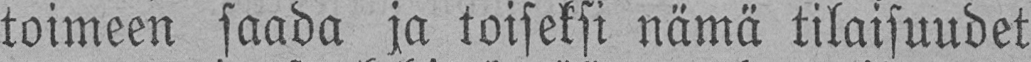toimeen saada ja toiseksi nämä tilaisuudet
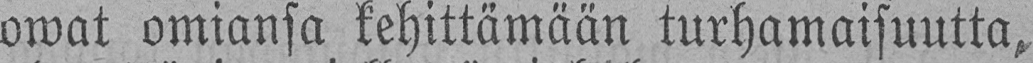owat omiansa kehittämään turhamaisuutta,
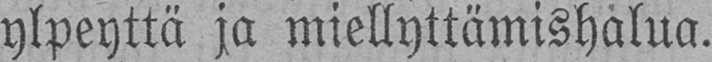ylpeyttä ja miellyttämishalua.
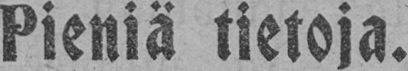Pieniä tietoja.
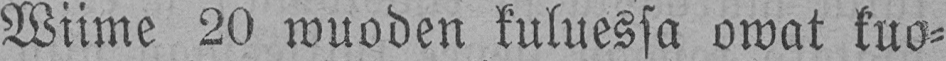Wiime 20 wuoden kuluessa owat kuo-
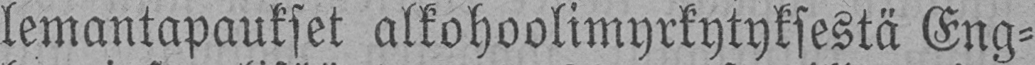lemantapaukset alkohoolimyrkytyksestä Eng-
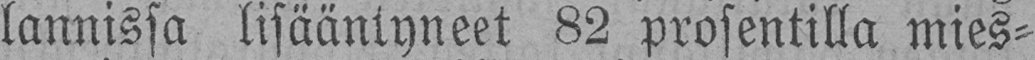lannissa lisääntyneet 82 prosentilla mies-
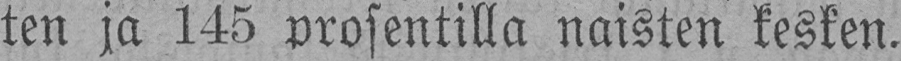ten ja 145 prosentilla naisten kesken.
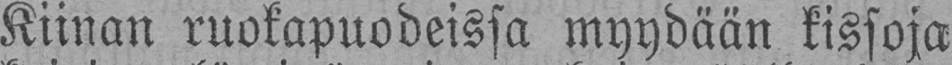Kiinan ruokapuodeissa myydään kissoja
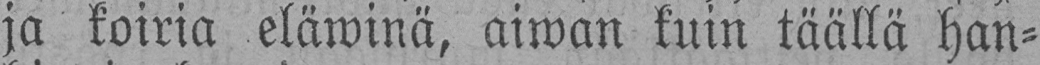ja koiria eläwinä, aiwan kuin täällä han-
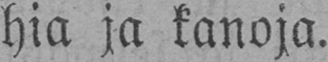hia ja kanoja.
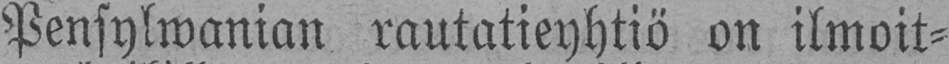Pensylwanian rautatieyhtiö on ilmoit-
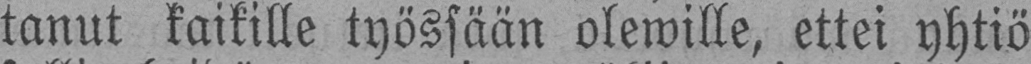tanut kaikille työssään olewille, ettei yhtiö
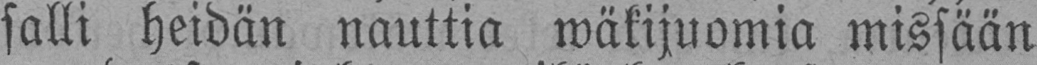salli heidän nauttia wäkijuomia missään
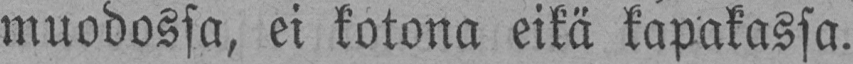muodossa, ei kotona eikä kapakassa.
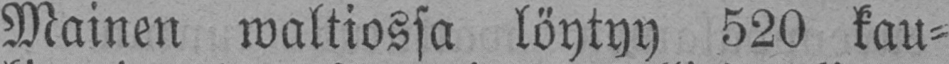Mainen waltiossa löytyy 520 kau-
